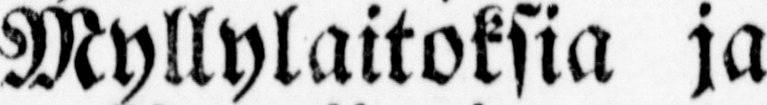Myllylaitoksia ja
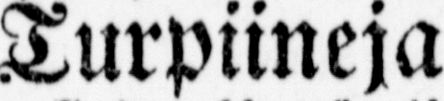Turpiineja
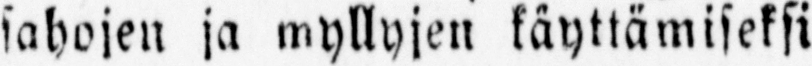sahojen ja myllyjen käyttämiseksi
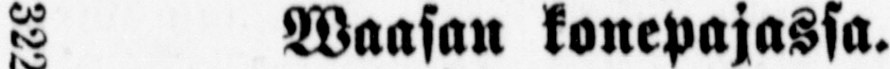322 Waasan konepajassa.
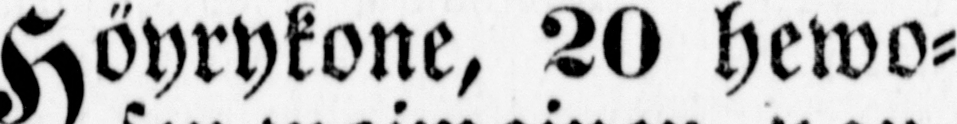Höyrykone, 20 hewo-
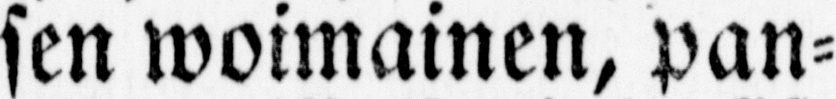sen woimainen, pan-
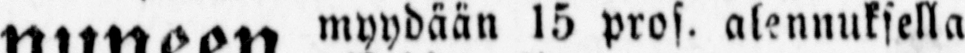nuneen myydään 15 pros. alennuksella
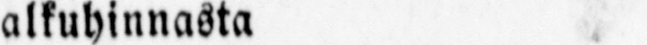alkuhinnasta
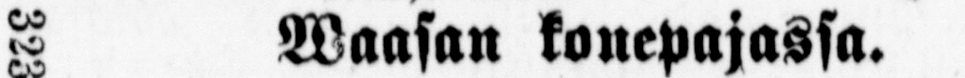322 Waasan konepajassa.
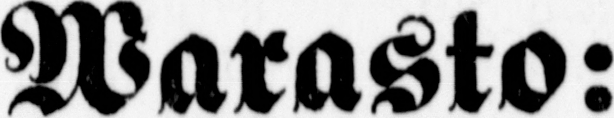Warasto:
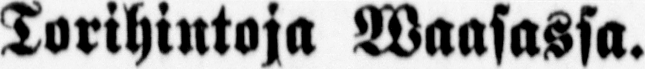Torihintoja Waasassa.
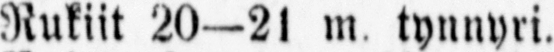Rukiit 20—21 m. tynnyri.
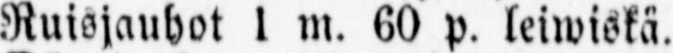Ruisjauhot 1 m. 60 p. leiwiskä.
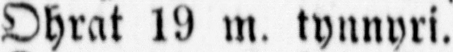Ohrat 19 m. tynnyri.
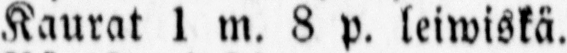Kaurat 1 m. 8 p. leiwiskä.
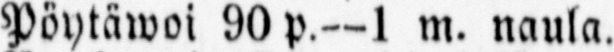Pöytäwoi 90 p.—1 m. naula.
